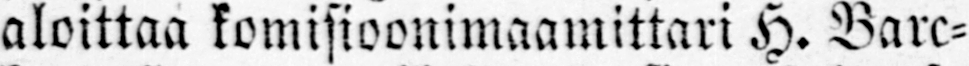aloittaa komisioonimaamittari H. Barc-
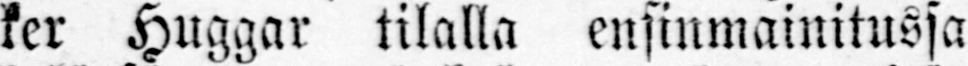ker Huggar tilalla ensinmainitussa
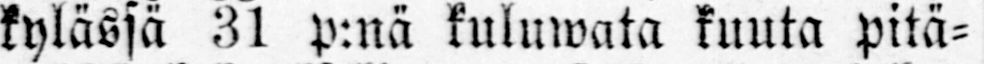kylässä 31 p:nä kuluwata kuuta pitä-
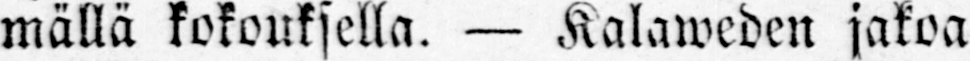mällä kokouksella. — Kalaweden jakoa
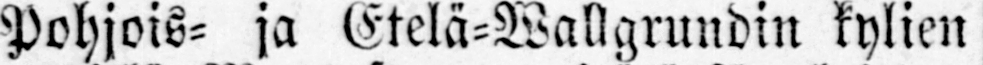Pohjois- ja Etelä-Wallgrundin kylien
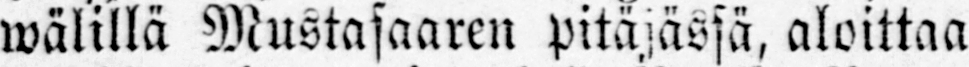wälillä Mustasaaren pitäjässä, aloittaa
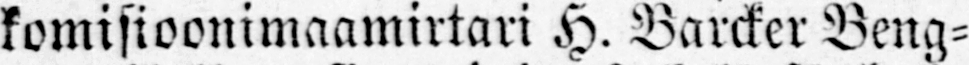komisioonimaamirtari H. Barcker Beng-
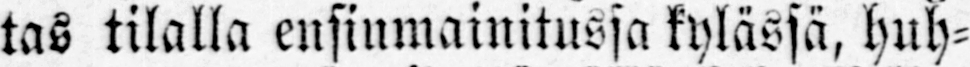tas tilalla ensinmainitussa kylässä, huh-
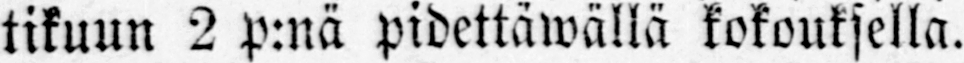tikuun 2 p:nä pidettäwällä kokouksella.
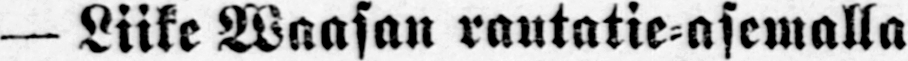— Liike Waasan rautatie-asemalla
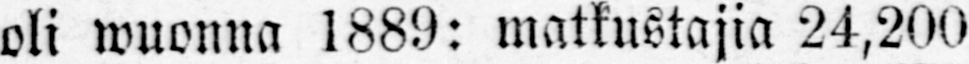oli wuonna 1889: matkustajia 24,200
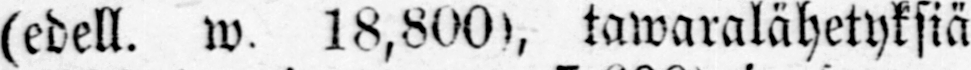(edell. w. 18,800), tawaralähetyksiä
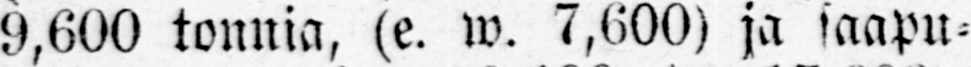9,600 tonnia, (e. w. 7,600) ja saapu-
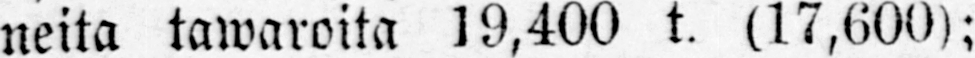neita tawaroita 19,400 t. (17,600);
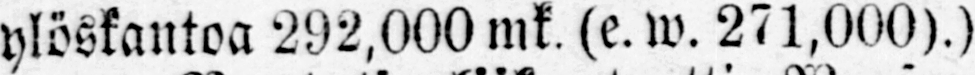ylöskantoa 292,000 mk. (e. w. 271,000).)
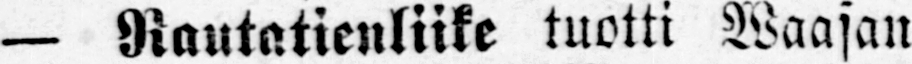— Rautatienliike tuotti Waasan
